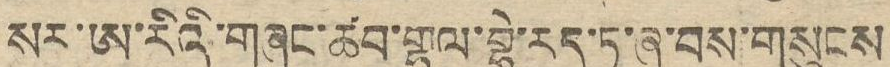སར་ཨ་རིའི་གཞུང་ཚབ་གྷལ་བྷེ་རད་ཏ་ཞུ་བས་གསུངས་
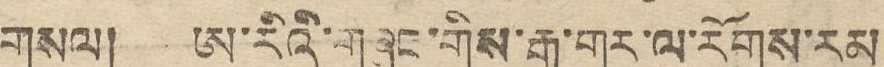གསལ། ཨ་རིའི་གཞུང་གིས་རྒྱ་གར་ལ་རོགས་རམ
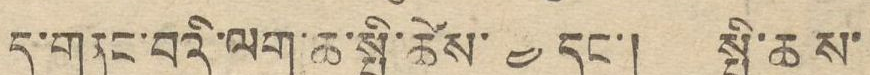དུ་གནང་བའི་ལག་ཆ་སྤྱི་ཚེས་ ༤ དང་། སྤྱི་ཆས་
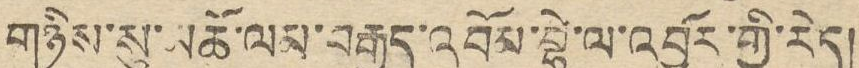གཉིས་སུ་མཚོ་ལམ་བརྒྱུད་འབོམ་བྷེ་ལ་འབྱོར་གྱི་རེད།
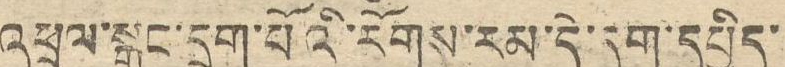འཕྲལ་སྒང་དྲག་པོའི་རོགས་རམ་དེ་དག་དཔྱིད་
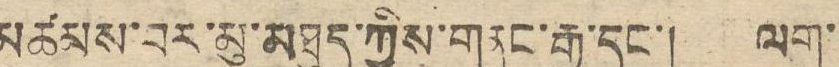མཚམས་བར་མུ་མཐུད་ཀྱིས་གནང་རྒྱ་དང་། ལག་
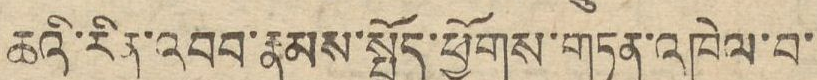ཆའི་རིན་འབབ་རྣམས་སྤྲོད་ཕྱོགས་གཏན་འཁེལ་བ་
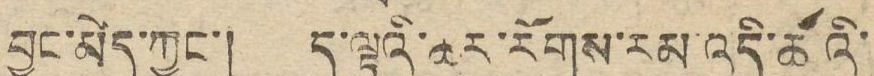བྱུང་མེད་ཀྱང་། ད་ལྟའི་ཆར་རོགས་རམ་འདི་ཚོའི་
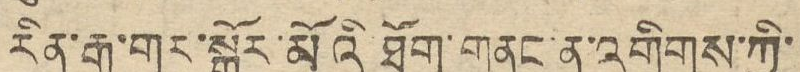རིན་རྒྱ་གར་སྒོར་མོའི་ཐོག་གནང་ན་འགྲིགས་ཀྱི་
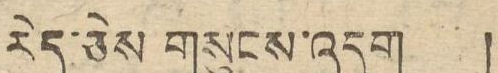རེད་ཅེས གསུངས་འདུག །
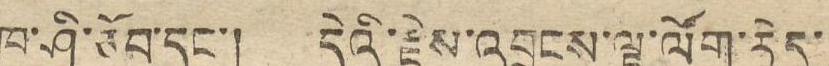ཁུ་ཤི་ཅོབ་དང་། དེའི་རྗེས་འབྲངས་ལྟ་ལོག་རེད་
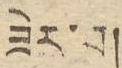ཟེར་བ།
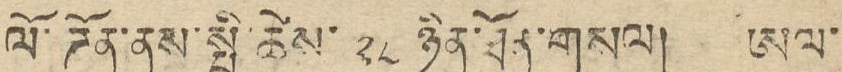ལོ་ཌོན་ནས་སྤྱི་ཚེས་ ༢༨ ཉིན་ཐོན་གསལ། ཨལ་
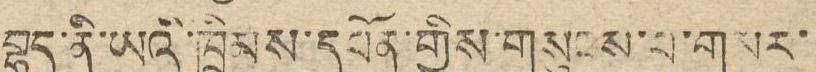བྷད་ནི་ཡའི་ཁྲིམས་དཔོན་གྱིས་གསུངས་པ་གསར་
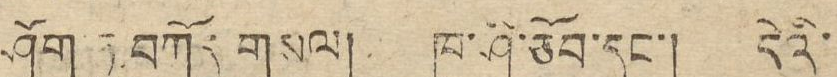ཤོག་ཏུ་བཀོད གསལ། ཁུ་ཤི་ཅོབ་དང་། དེའི་
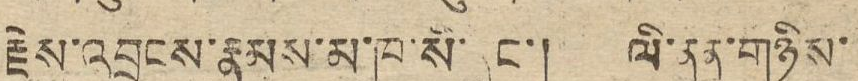རྗེས་འབྲངས་རྣམས་མ་ཁ་སི་དང་། ལི་ནན་གཉིས་
